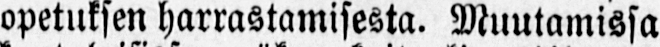opetuksen harrastamisesta. Muutamissa
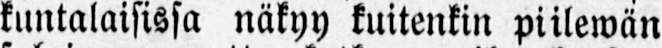kuntalaisissa näkyy kuitenkin piilewän
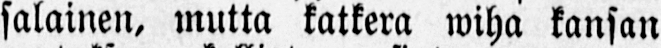salainen, mutta katkera wiha kansan
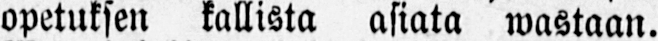opetuksen kallista asiata wastaan.
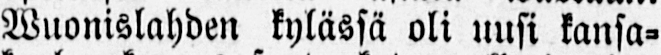Wuonislahden kylässä oli uusi kansa-
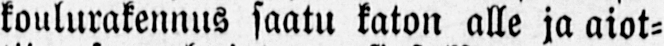koulurakennus saatu katon alle ja aiot-
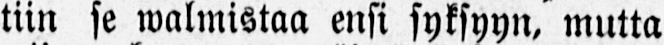tiin se walmistaa ensi syksyyn, mutta
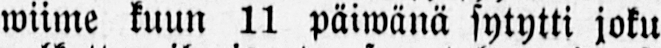wiime kuun 11 päiwänä sytytti joku
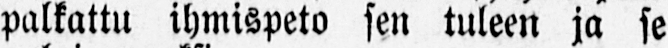palkattu ihmispeto sen tuleen ja se
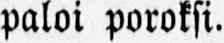paloi poroksi.
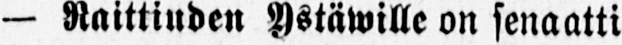— Raittiuden Ystäwille on senaatti
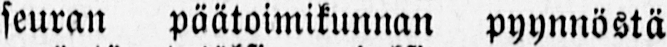seuran päätoimikunnan pyynnöstä
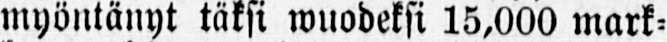myöntänyt täksi wuodeksi 15,000 mar-
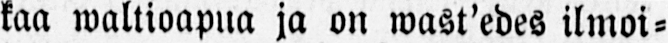kaa waltioapua ja on wast'edes ilmoi-
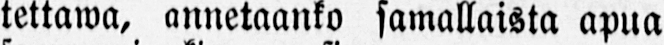tettawa, annetaanko samallaista apua
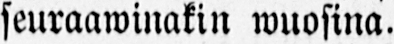seuraawinakin wuosina.
